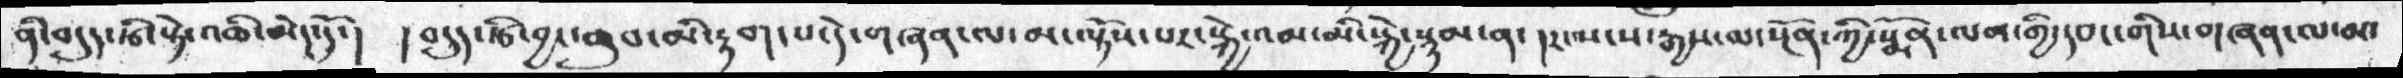ནི་བདུད་རྩི་སྟེ་འཆི་མེད་དོ་།  ། བདུད་རྩི་བྱང་ཆུབ་མི་རྟག་པ་དེ་གཞན་ལ་མ་ལྟོས་པར་སྐྱེ་འམ་མི་སྐྱེ་སྙམ་ན་ །རང་སངས་རྒྱས་ལ་སྔོན་ཀྱི་སྨོན་ལམ་གྱི་དབང་གིས་གཞན་ལ་མ་
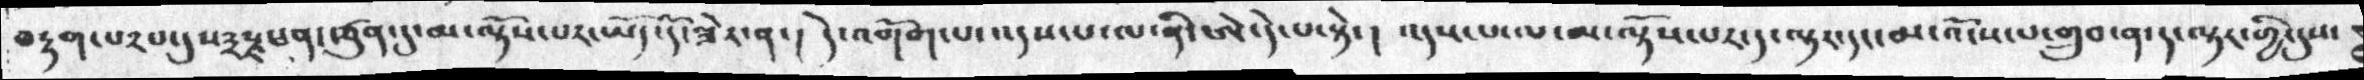བརྟག་པ༢པ་དུས༣སྗཕན་ཚུན་དུ་མ་ལྟོས་པར་ཡོད་དོ་ཟེར་ན་། དེ་འགོག་པ་འདས་པ་ལ་ནི་ཨེ་དེ་པ་སྟེ་།  འདས་པ་ལ་མ་ལྟོས་པར་ད་ལྟར་དང་མ་འོངས་པ་གྲུབ་ན་ད་ལྟར་གྱི་དུས་
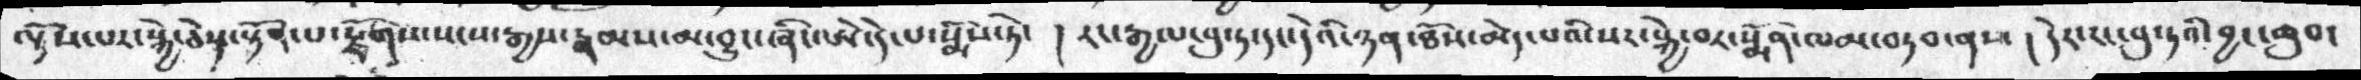ལྟོས་པར་སྐྱེ་ཅེས་སྟོན་པ་རྫོགས་སངས་རྒྱས་རྣམས་མ་བྱུང་ཞིང་ཨེ་དེ་པ་སྨོས་ཏེ་ ། རང་རྒྱལ་བུ་ཏ་དང་དེའི་ཉན་ཐོས་མེད་པའི་སར་སྐྱེ་བར་སྨོན་ལམ་བཏབ་ནས །  དེར་རང་བུ་ཏའི་བྱང་ཆུབ་
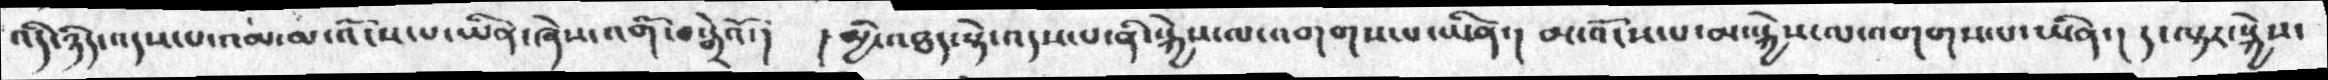འདི་ཉིད་འདས་པ་འམ་མ་འོངས་པ་ཡིན་ཞེས་འགོ་བསྒྲེའོ་།   །མྱི་འཐད་སྟེ་འདས་པ་ནི་སྐྱེས་ལ་འགགས་པ་ཡིན་།  མ་འོངས་པ་མ་སྐྱེས་ལ་འགགས་པ་ཡིན་།  ད་ལྟར་སྐྱེས་
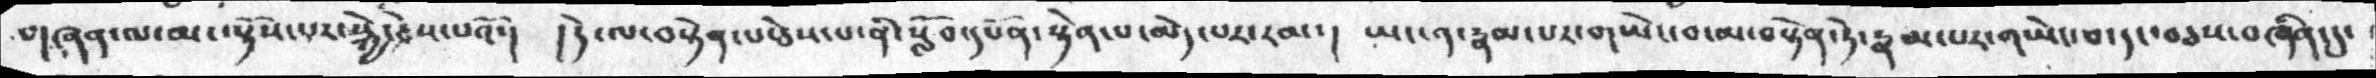གཞན་ལ་མ་ལྟོས་པར་སྐྱེ་ཅེས་པའོ་།  །དེ་ལ་བསྟེན་པ་ཅེས་པ་ནི་སློབ་དཔོན་སྟེན་པ་མེད་པར་རམ་།  ཡང་ན་རྣམ་པར་གཡེང་བ་མ་བསྟེན་ཏེ་རྣམ་པར་གཡེང་བ་དང་བཅས་བཞིན་དུ་
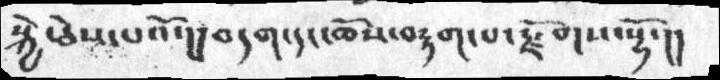སྐྱེ་ཅེས་པའོ་།། བདག་དང་ཆོས་བརྟག་པ་རྫོགས་སྷོ་།།
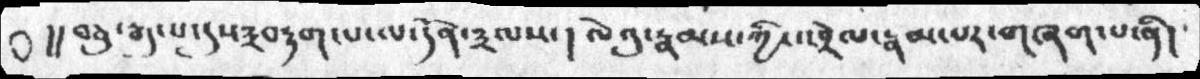།། བཅུ་རྒུ་པ་དུས་༣བརྟག་པ་ལ་དོན་༣ལས་ ། ལེའུ་རྣམས་ཀྱི་འབྲེལ་རྣམ་པར་གཞག་པ་ནི།
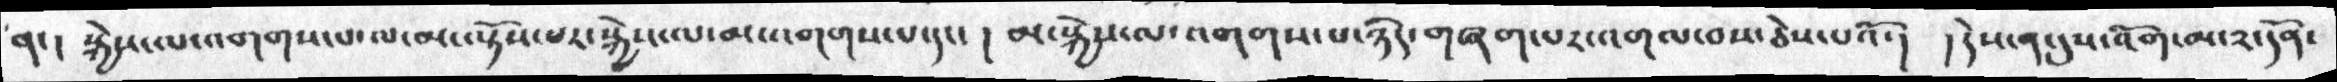ན་། སྐྱེས་ལ་འགགས་པ་ལ་མ་ལྟོས་པར་སྐྱེས་ལ་མ་འགགས་པ་དང་ ། མ་སྐྱེས་ལ་འགགས་པ་ཉིད་གཞག་པར་འགལ་བས་ཅེས་པའོ་།  །དེས་ན་དུས་འོག་མ་༢་དོན་
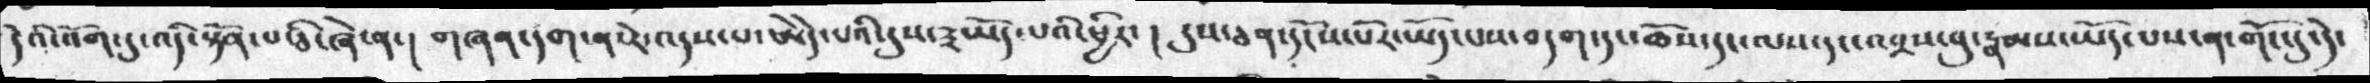དེའི་འོག་དུ་འདི་སྟོན་པ་ཅི་ཞེ་ན་།  གཞན་དག་ན་རེ་འདས་པ་ཨེདེ་པའི་དུས་༣ཡོད་པའི་ཕྱིར་།  དུས་ཅན་དངོས་པོར་ཡོད་པས་བདག་དང་ཆོས་དང་ལས་དང་འབྲས་བུ་རྣམས་ཡོད་པས་ན་གོང་དུ་དེ་
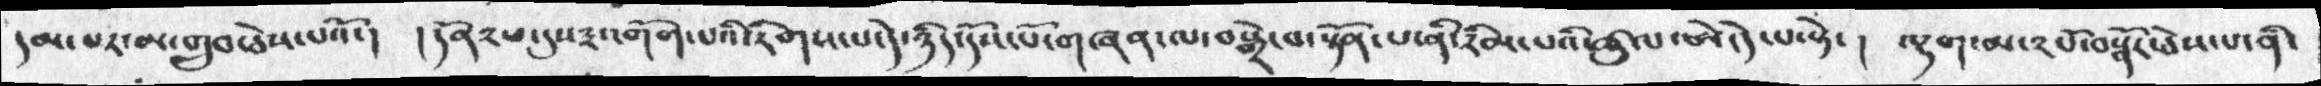དམ་པར་མ་གྲུབ་ཅེས་པའོ་།  །དོན༢པ་དུས༣འགོག་པའི་རིགས་པ་དེ་ཉིད་དངོས་པོ་གཞན་ལ་བསྒྲེ་བ་སྟོན་པ་ནི་རིམ་པའི་ཚུལ་ཨེ་དེ་པ་སྟེ་། ལྷག་མ་༢པོ་བསྣོར་ཅེས་པ་ནི་
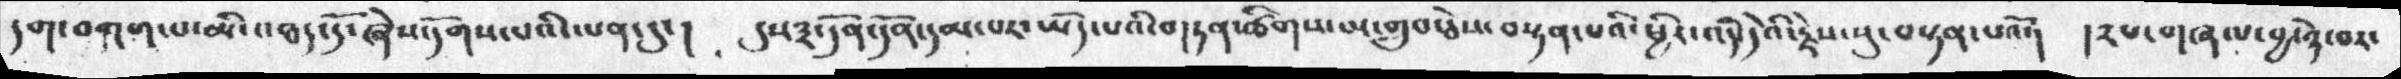དག་བགག་པ་མི་འཐད་དོ་ཞེས་དོགས་པའི་ལན་དུ་།  དུས༣་དོན་དོན་དམ་པར་ཡོད་པའི་གཏན་ཚིགས་མ་གྲུབ་ཅེས་བསྟན་པའི་ཕྱིར་འདི་དེའི་རྗེས་སུ་བསྟན་པའོ་། །༢པ་གཞལ་བྱ་ཉེ་བར་
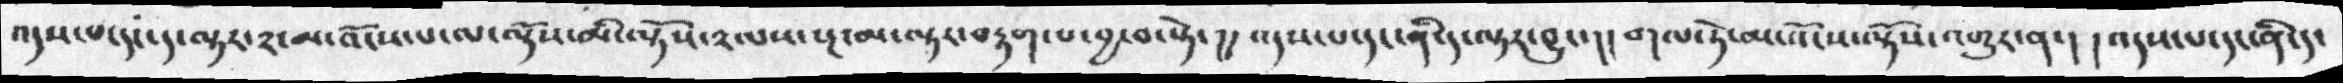འདས་པ་དང་ད་ལྟར་༢་མ་འོངས་པ་ལ་ལྟོས་མི་ལྟོས་༢ལས་སྔ་མ་ལྟར་བརྟག་པ་བྱ་བ་སྟེ་།། འདས་པ་དང་ནི་ད་ལྟར་བྱུང་། །གལ་ཏེ་མ་འོངས་ལྟོས་འགྱུར་ན་། །འདས་པ་དང་ནི་ད་
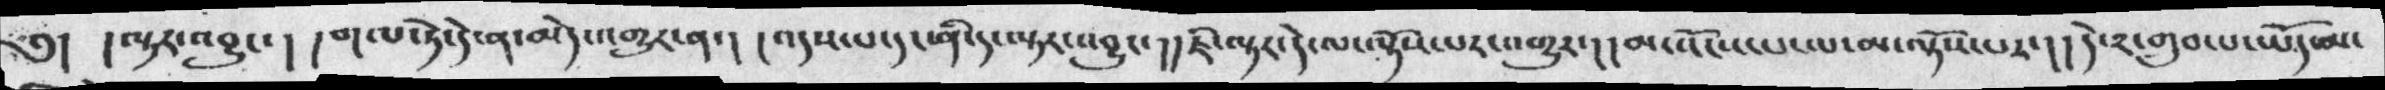༅། །ལྟར་འབྱུང་། །གལ་ཏེ་དེ་ན་མེད་འགྱུར་ན་། །འདས་པ་དང་ནི་ད་ལྟར་འབྱུང་། །ཇི་ལྟར་དེ་ལ་ལྟོས་པར་འགྱུར་། །མ་འོངས་པ་ལ་མ་ལྟོས་པར་། །དེ་༢་གྲུབ་པ་ཡོད་མ་
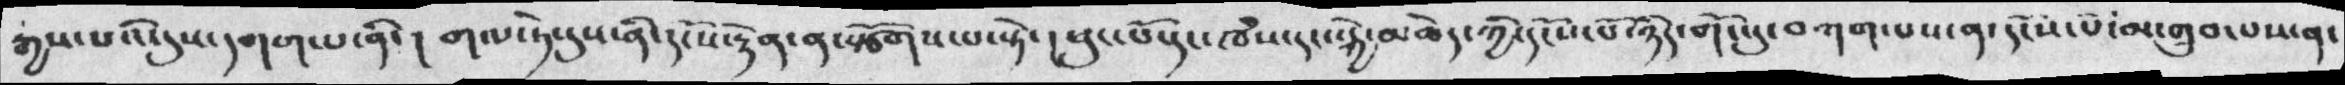རྒྱས་པའི་དུས་དགག་པ་ནི་། གལ་ཏེ་དུས་ནི་དངོས་རྟེན་ན་སྩོགས་པ་སྟེ་། ཕུང་པོ་དང་ཁཾས་དང་སྐྱེ་མཆེད་ཀྱི་དངོས་པོ་ཉིད་གོང་དུ་བཀག་པས་ན་དངོས་པོ་མ་གྲུབ་པས་ན་
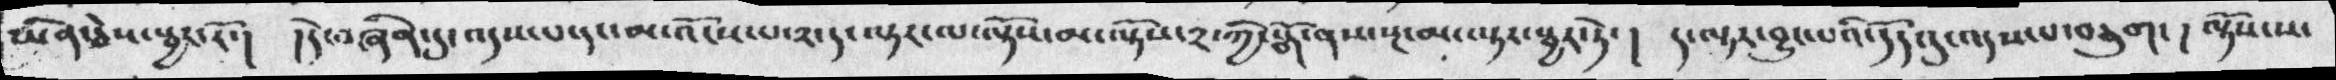ཡིན་ཅེས་སྦྱར་རོ་། །དེ་བཞིན་དུ་འདས་པ་དང་མ་འོངས་པ་༢་ད་ལྟར་ལ་ལྟོས་མ་ལྟོས་༢་ཀྱི་སྒོ་ནས་སྔ་མ་ལྟར་སྦྱར་ཏེ་། ད་ལྟར་བྱུང་པའི་དོན་དུ་འདས་པ་བཅུག་། ལྟོས་ས་
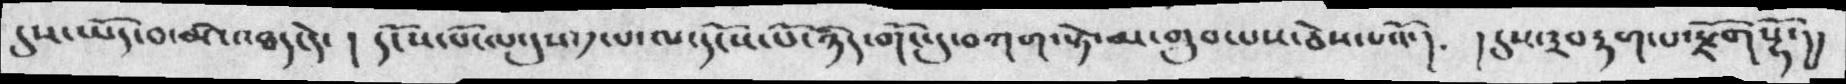དུས་ཡོད་བ་མི་འཐད་དེ་། དངོས་པོ་ལ་དུས་༡་ལ་དངོས་པོ་ཉིད་གོང་དུ་བཀག་སྟེ་མ་གྲུབ་པས་ཅེས་པའོ་། །དུས་༣བརྟག་པ་རྫོགསྷོ་།།
